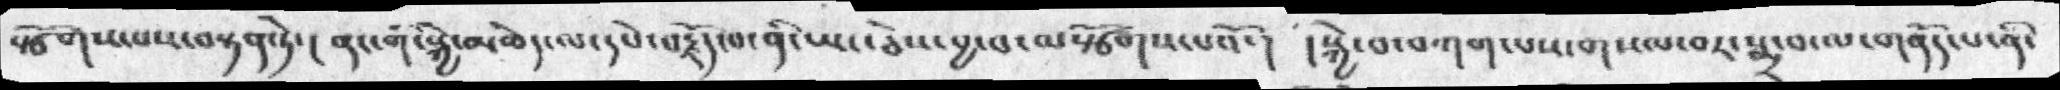སྩོགས་པས་བསྟན་ཏེ་།  ནང་གི་སྐྱེ་མཆེད་ལ་དཔེ་བརྗོད་པ་ནི་ཡང་ཅེས་བྱ་བ་ལསྩོགས་པའོ་།  །སྐྱེ་བ་བཀག་པས་གསལ་བར་སྨྲ་བ་ལ་གནོད་པ་ནི་
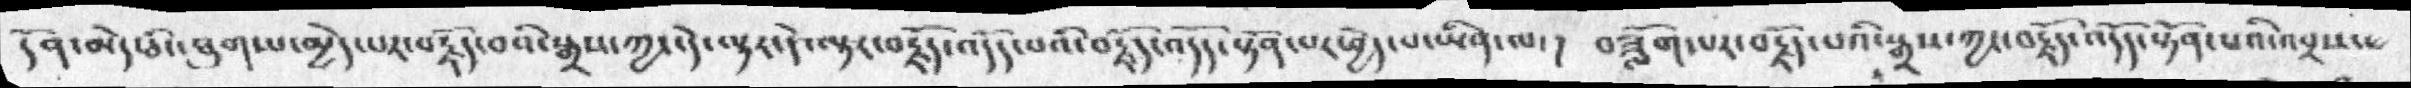དོན་མེད་ཅིང་ཐུག་པ་མྱེད་པར་བརྗོད་པའི་སྒྲས་ཀྱང་དེ་ལྟར་བརྗོད་འདོད་པའི་སྟོན་པར་བྱེད་ཡ་ཡིན་ལ་།  བཟློག་པར་བརྗོད་པའི་སྒྲས་ཀྱང་བརྗོད་འདོད་སྟོན་འབྲས་
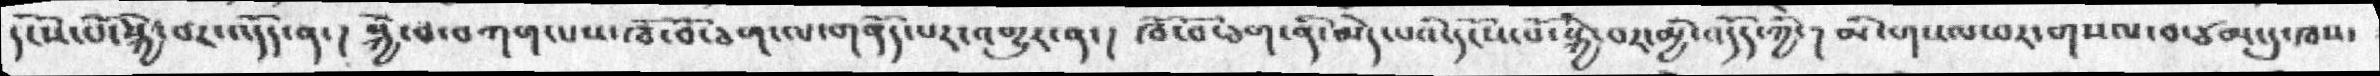དངོས་པོ་སྐྱེ་བར་འདོད་ན་། སྐྱེ་བ་བཀག་པས་ཁོ་བོ་ཅག་ལ་གནོད་པར་འགྱུར་ན་།  ཁོ་བ་ཅག་ནི་མེད་པའི་དངོས་པོ་སྐྱེ་བར་མྱི་འདོད་ཀྱི་།   མི་གསལ་བར་གསལ་བ་ཙམ་དུ་ཁས་
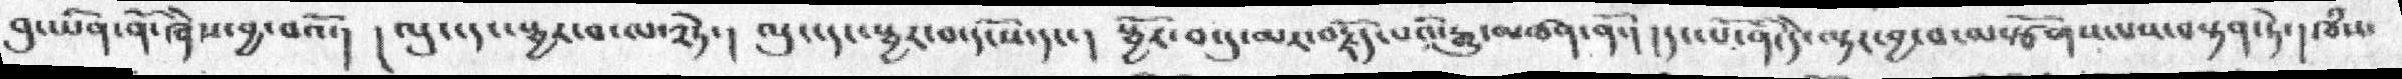བུ་ཡིན་ནོ་ཞེས་བྱ་བའོ་།  ། ལུང་དང་སྦྱར་བ་ལ་༢ཏེ་། ལུང་དང་སྦྱར་བ་དངོས་དང་།  སྦྱོར་བ་དུ་མར་བརྗོད་པའི་རྒྱུ་མཚན་ནོ་། །དང་པོ་ནི་དེ་ལྟར་བྱ་བ་ལསྩོགས་པས་བསྟན་ཏེ་། ཁཾས་
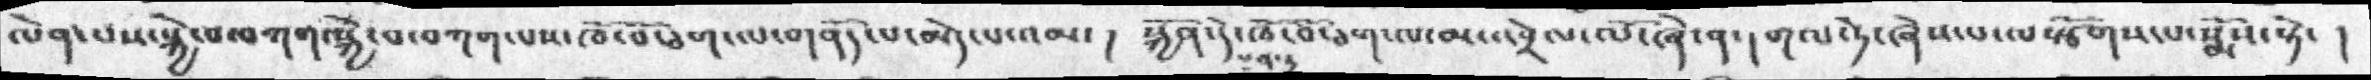ལེན་པས་སྐྱེ་བ་བཀག་སྐྱེ་བ་བཀག་པས་ཁོ་བོ་ཅག་ལ་གནོད་པ་མེད་པ་འམ་། སྐྱོན་དེ་ཁོ་བོ་ཅག་ལ་མ་འབྲེལ་ལོ་ཞེ་ན་།  གལ་ཏེ་ཞེས་པ་ལསྩོགས་པ་སྨོས་སྟེ་
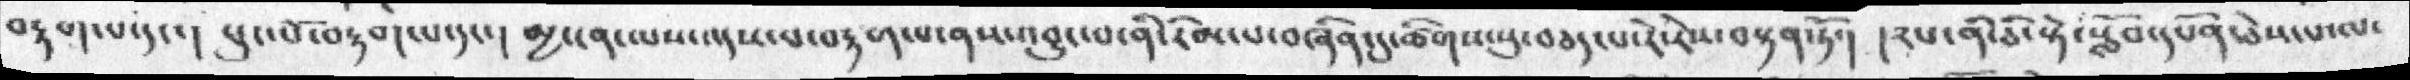བརྟག་པ་དང་།  ཕུང་པོ་བརྟག་པ་དང་།  མྱ་ངན་ལས་འདས་པ་བརྟག་པ་ནས་འབྱུང་བ་ནི་རིམ་པ་བཞིན་དུ་ཚིགས་སུ་བཅད་པ་རེ་རེས་བསྟན་ཏོ་། །༢པ་ནི་ཅི་སྟེ་སློབ་དཔོན་ཅེས་པ་ལ་
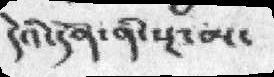དེའི་དོན་ནི་སྔ་མ་
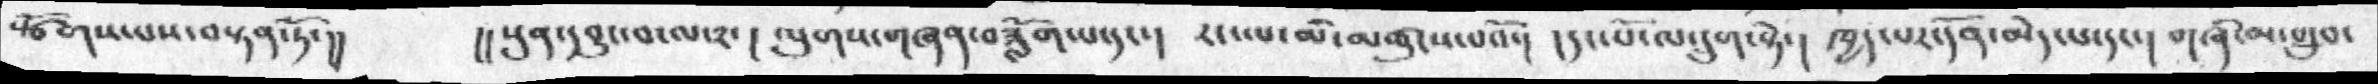སྩོགས་པས་བསྟན་ཏོ་།།  །།སུན་དབྱུང་བ་ལ་༢་ ། ལུགས་གཞན་བཟློག་པ་དང་།  རང་ལ་མི་མཚུངས་པའོ་།  །དང་པོ་ལ་དྲུག་སྟེ་།  ཁྱད་པར་དོན་མེད་པ་དང་།  གཞི་མ་གྲུབ
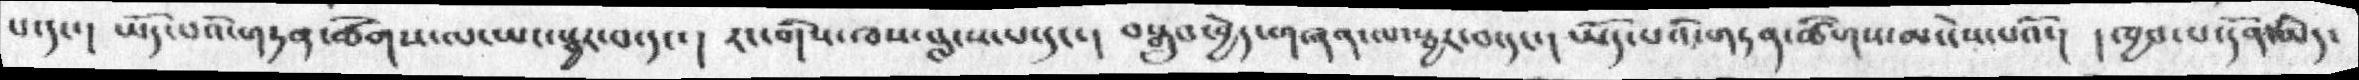པ་དང་།  ཡོད་པའི་གཏན་ཚིགས་ལ་ཡང་སྦྱར་བ་དང་།  རང་གིས་ཁས་བླངས་པ་དང་། བསྒྲུབ་བྱེད་གཞན་ལ་སྦྱར་བ་དང་།    ཡོད་པའི་གཏན་ཚིགས་མ་ངེས་པའོ་།  ཁྱབ་པ་དོན་མེད་
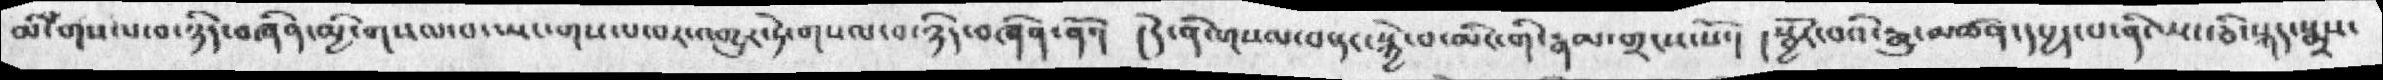མི་གསལ་བ་ཉིད་བཞིན་མྱི་གསལ་བ་ཡང་གསལ་བར་འགྱུར་ཏེ་གསལ་བ་ཉིད་བཞིན་ནོ་།  །དེ་ནི་གསལ་བར་སྐྱེ་བ་མིང་གི་རྣ་མ་གྲངས་སོ་།  །སྦྱོར་བའི་རྒྱུ་མཚན་དཔྱད་པ་ནི་ལས་ཅི་སྐད་སྨྲས་
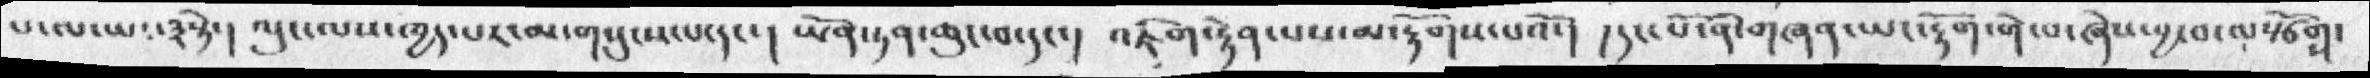པ་ལ་ཡང་༣སྟེ་།   ལུང་ལས་ཁྱད་པར་མ་གསུངས་པ་དང་།   ཡོན་ཏན་ཆུང་བ་དང་།  འཇིག་རྟེན་པས་མ་རྟོགས་པའོ་།  །དང་པོ་ནི་གཞན་ཡང་རྟོག་གེ་པ་ཞེས་བྱ་བ་ལསྩོགས་
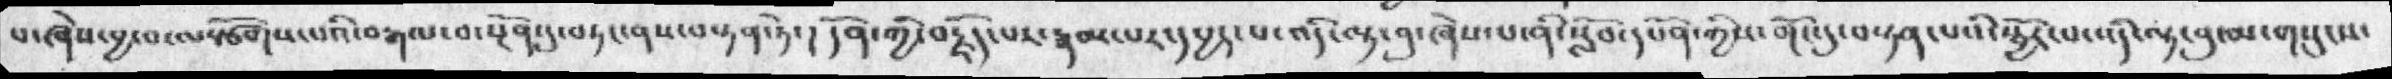པ་ཞེས་བྱ་བ་ལསྩོགས་པའི་བརྒལ་བ་སྔོན་དུ་བཏང་ནས་བསྟན་ཏེ་།  དོན་ཀྱི་བརྗོད་པར་རྣམ་པར་དཔྱད་པ་འདི་ལྟ་བུ་ཞེས་པ་ནི་སློབ་དཔོན་ཀྱིས་གོང་དུ་བསྟན་པའི་སྦྱོར་པ་འདི་ལྟ་བུ་མ་གསུངས་
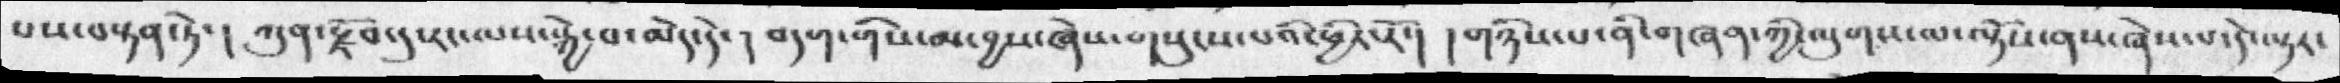པས་བསྟན་ཏེ་།  ཀུན་རྫོབ་དུ་རང་ལས་སྐྱེ་བ་མེད་དེ་།  བདག་གིས་མ་བྱས་ཞེས་གསུངས་པའི་ཕྱིར་རོ་།  །གཉིས་པ་ནི་གཞན་ཀྱི་ལུགས་ལ་ལྟོས་ནས་ཞེས་པ་དེ་ལྟར་
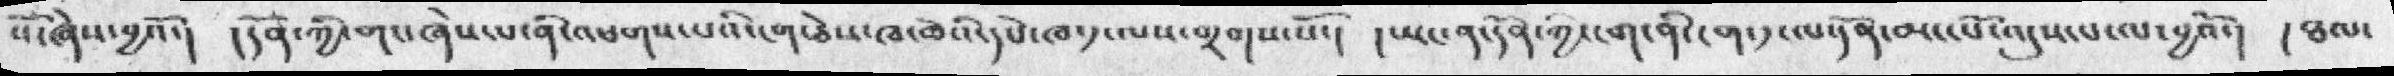སོ་ཞེས་བྱའ་།  །དོན་ཀྱི་གང་ཞེས་པ་ནི་འཕགས་པའི་ངག་ཅེས་ཁ་ཆེའི་དཔེ་ཁ་༡་ལས་གྲགས་སོ་།  ། ཡང་ན་དོན་ཀྱི་ངག་ནི་ངག་༡་ལ་དོན་མང་པོ་འདུས་པ་ལ་བྱའོ་།  །ཐལ་
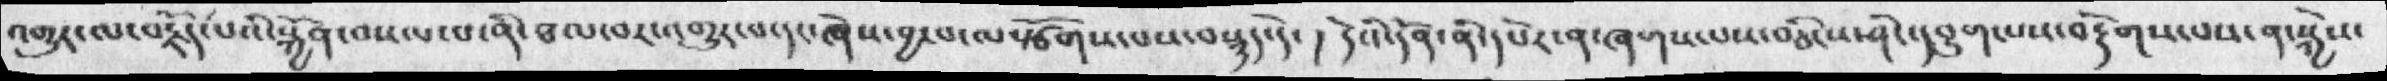འགྱུར་ལ་བརྗོད་པའི་སྐྱོན་བསལ་པ་ནི་ཐལ་བར་འགྱུར་པ་དང་ཞེས་བྱ་པ་ལསྩོག་པས་བསྙད་དེ་། དེའི་དོན་ནི་དཔེར་ན་ཞགས་པས་བཅིངས་ཤིང་དབྱུག་པས་བརྟེགས་པས་ན་སྐྱེས་
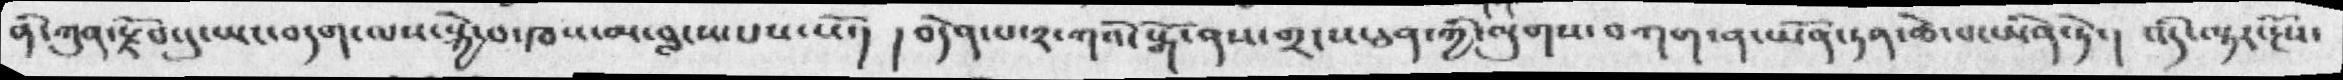ནི་ཀུན་རྫོབ་དུ་ཡང་བདག་ལས་སྐྱེ་པ་ཁས་མ་བླངས་པས་སོ་།  ། བདེན་པ་༢་ཀའི་སྒོ་ནས་གྲངས་ཅན་ཀྱི་ལུགས་བཀག་ན་ཡོན་ཏན་ཆེ་པ་ཡིན་ཏེ་།  འདི་ལྟར་རྔོས་
